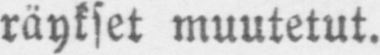räykset muutetut.
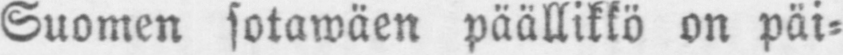Suomen sotawäen päällikkö on päi-
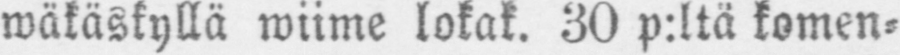wäkäskyllä wiime lokak. 30 p:ltä komen-
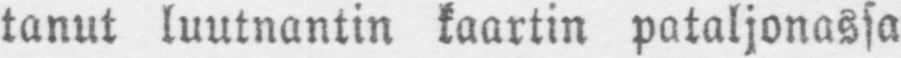tanut luutnantin kaartin pataljonassa
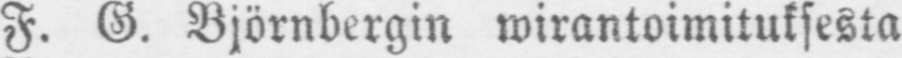F. G. Björnbergin wirantoimituksesta
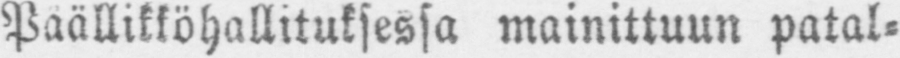Päällikköhallituksessa mainittuun patal-
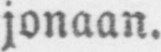joonaan.
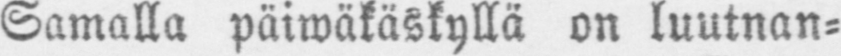Samalla päiwäkäskyllä on luutnan-
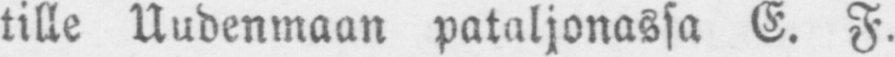tille Uudenmaan pataljonassa E. F.
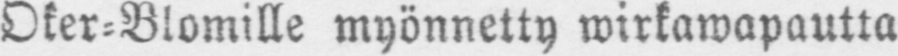Oker-Blomille myönnetty wirkawapautta
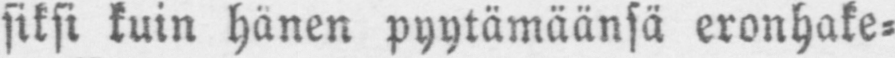siksi kuin hänen pyytämäänsä eronhake-
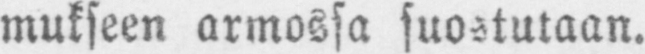mukseen armossa suostutaan.
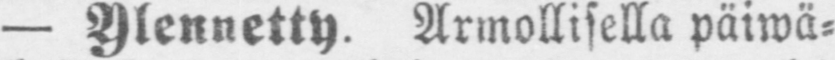— Ylennetty. Armollisella päiwä-
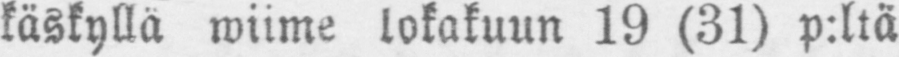käskyllä wiime lokakuun 19 (31) p:ltä
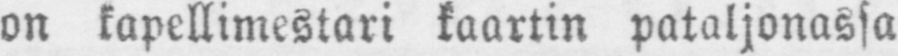on kapellimestari kaartin pataljonassa
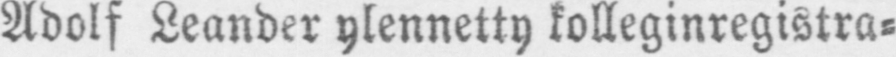Adolf Leander ylennetty kolleginregistra-
